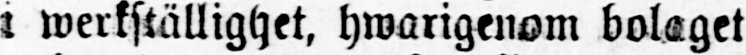i werkställighet, hwarigenom bolaget
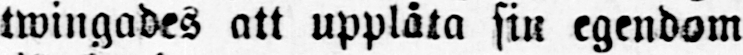twingades att upplåta sin egendom
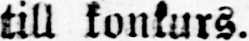till konkurs.
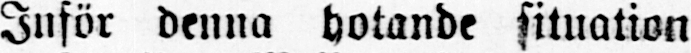Inför denna hotande situation
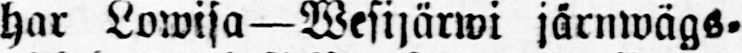har Lowisa—Wesijärwi järnwägs-
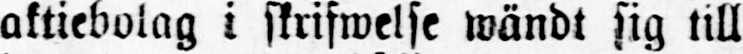aktiebolag i skrifwelse wändt sig till
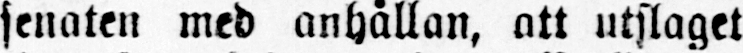senaten med anhållan, att utslaget
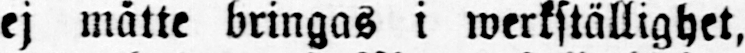ej måtte bringas i werkställighet,
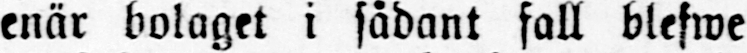enär bolaget i sådant fall blefwe
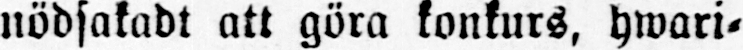nödsakadt att göra konkurs, hwari-
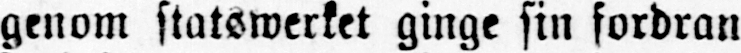genom statswerket ginge sin fordran
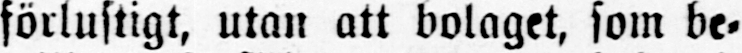förlustigt, utan att bolaget, som be-
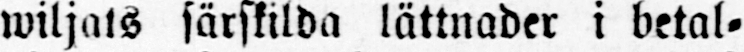wiljats särskilda lättnader i betal-
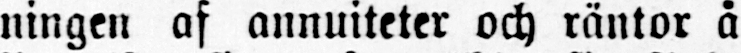ningen af annuiteter och räntor å
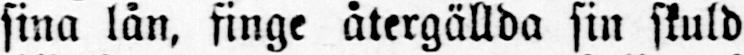sina lån, finge återgällda sin skuld
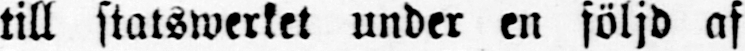till statswerket under en följd af
